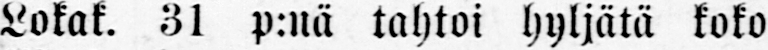Lokak. 31 p:nä tahtoi hyljätä koko
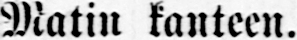Matin kanteen.
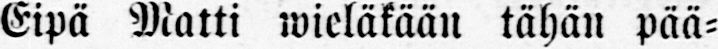Eipä Matti wieläkään tähän pää-
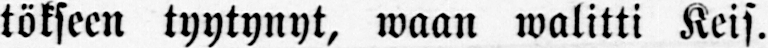tökseen tyytynyt, waan walitti Keis.
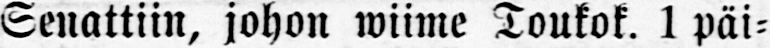Senattiin, johon wiime Toukok. 1 päi-
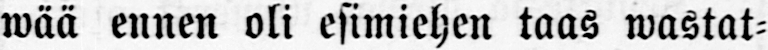wää ennen oli esimiehen taas wastat-
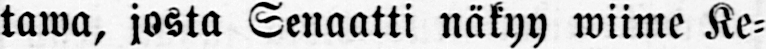tawa, josta Senaatti näkyy wiime Ke-
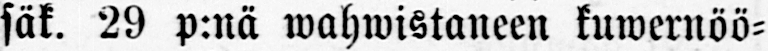säk. 29 p:nä wahwistaneen kuwernöö-
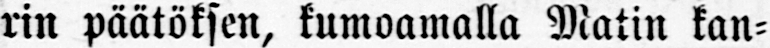rin päätöksen, kumoamalla Matin kan-
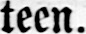teen.
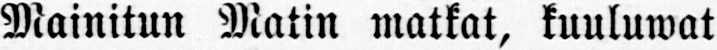Mainitun Matin matkat, kuuluwat
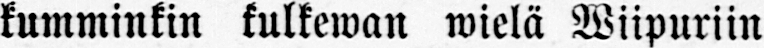kumminkin kulkewan wielä Wiipuriin
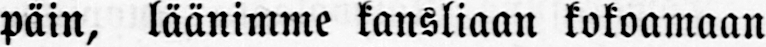päin, läänimme kansliaan kokoamaan
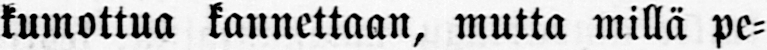kumottua kannettaan, mutta millä pe-
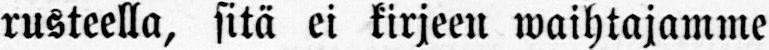rusteella, sitä ei kirjeen waihtajamme
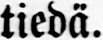tiedä.
